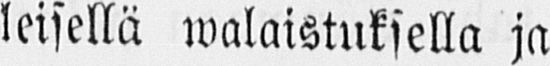leisellä walaistuksella ja
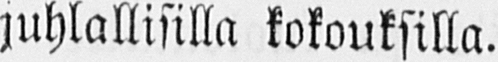juhlallisilla kokouksilla.
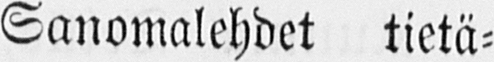Sanomalehdet tietä-
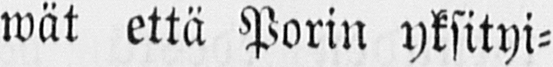wät että Porin yksityi-
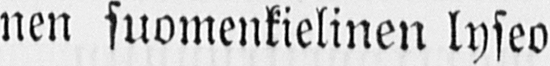nen suomenkielinen lyseo
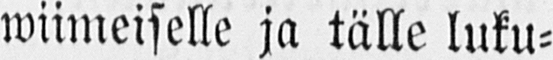wiimeiselle ja tälle luku-
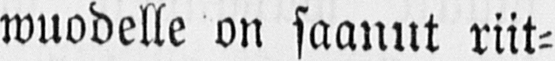wuodelle on saanut riit-
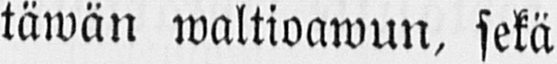täwän waltioawun, sekä
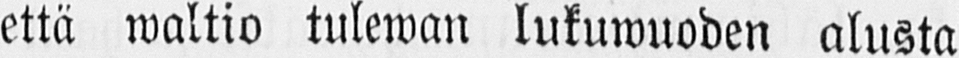että waltio tulewan lukuwuoden alusta
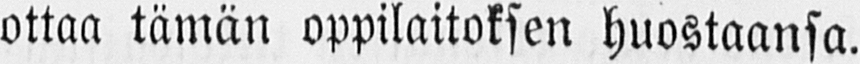ottaa tämän oppilaitoksen huostaansa.
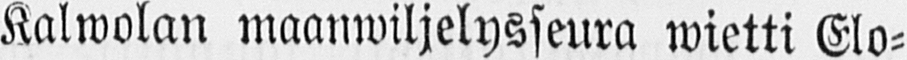Kalwolan maanwiljelysseura wietti Elo-
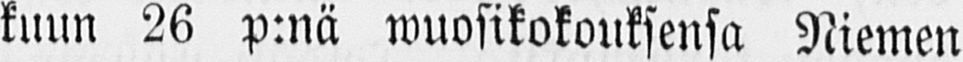kuun 26 p:nä wuosikokouksensa Niemen
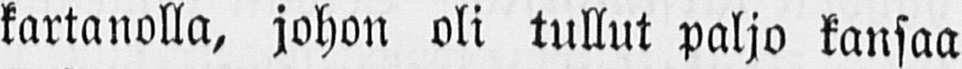kartanolla, johon oli tullut paljo kansaa
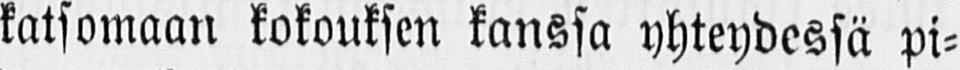katsomaan kokouksen kanssa yhteydessä pi-
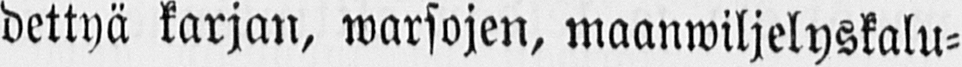dettyä karjan, warsojen, maanwiljelyskalu-
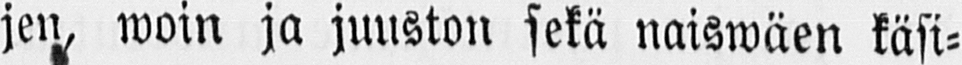jen, woin ja juuston sekä naiswäen käsi-
